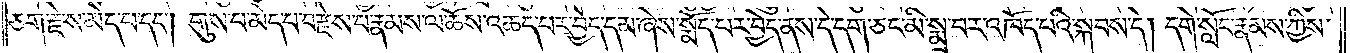ཅག་རྗེ་ས་མེད་པ་དང༌། གུས་པ་མེད་པ་བརྫེས་པ་རྣམས་ལ་ཆོས་འཆད་པར་བྱེད་དམ་ཞེས་སྨོད་པར་བྱེད་ནས་དེ་དག་ཅང་མི་སྨྲ་བར་འཁོད་པའི་སྐབས་དེ། དགེ་སློང་རྣམས་ཀྱིས་
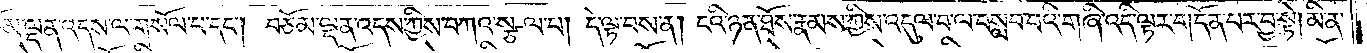བཅོམ་ལྡན་འདས་ལ་གསོལ་པ་དང༌། བཅོམ་ལྡན་འདས་ཀྱིས་བཀའ་སྩལ་པ། དེ་ལྟ་བས་ན། ངའི་ཉན་ཐོས་རྣམས་ཀྱིས་འདུལ་བ་ལ་བསླབ་པའི་གཞི་འདི་ལྟར་གདོན་པར་བྱ་སྟེ། མི་ན་
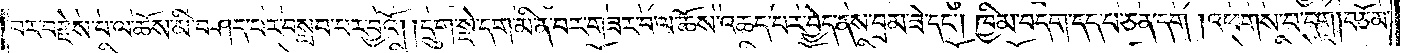བར་བརྫེས་པ་ལ་ཆོས་མི་བཤད་པར་བསླབ་པར་བྱའོ། །དྲུག་སྡེ་དག་མི་ན་བར་གཟར་བ་ལ་ཆོས་འཆད་པར་བྱེད་ནས་བྲམ་ཟེ་དང༌། ཁྱིམ་བདག་དད་པ་ཅན་དག །འཕགས་པ་དག །བཅོམ་
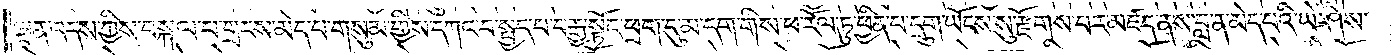ལྡན་འདས་ཀྱིས་བསྐལ་པ་གྲངས་མེད་པ་གསུམ་གྱིས་དཀའ་བ་སྤྱད་པ་བརྒྱ་སྟོང་ཕྲག་དུ་མ་དག་གིས་ཕ་རོལ་ཏུ་ཕྱིན་པ་དྲུག་ཡོངས་སུ་རྫོགས་པར་མཛད་ནས་བླ་ན་མེད་པའི་ཡེ་ཤེས་
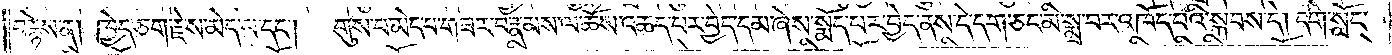བརྙེས་ན། ཁྱེད་ཅག་རྗེས་མེད་པ་དང༌། གུས་པ་མེད་པ་གཟར་བ་རྣམས་ལ་ཆོས་འཆད་པར་བྱེད་དམ་ཞེས་སྨོད་པར་བྱེད་ནས་དེ་དག་ཅང་མི་སྨྲ་བར་འཁོད་པའི་སྐབས་དེ། དགེ་སློང་
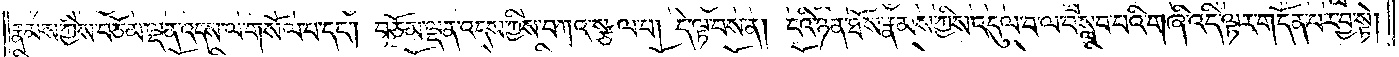རྣམས་ཀྱིས་བཅོམ་ལྡན་འདས་ལ་གསོལ་པ་དང༌། བཅོམ་ལྡན་འདས་ཀྱིས་བཀའ་སྩལ་པ། དེ་ལྟ་བས་ན། ངའི་ཉན་ཐོས་རྣམས་ཀྱིས་འདུལ་བ་ལ་བསླབ་པའི་གཞི་འདི་ལྟར་གདོན་པར་བྱ་སྟེ།
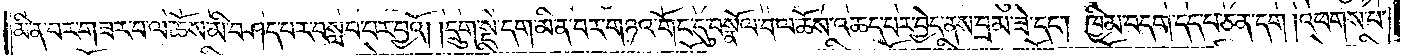མི་ན་བར་གཟར་བ་ལ་ཆོས་མི་བཤད་པར་བསླབ་པར་བྱའོ། །དྲུག་སྡེ་དག་མི་ན་བར་གཉའ་གོང་དུ་བསྣོལ་བ་ལ་ཆོས་འཆད་པར་བྱེད་ནས་བྲམ་ཟེ་དང༌། ཁྱིམ་བདག་དད་པ་ཅན་དག །འཕགས་པ་
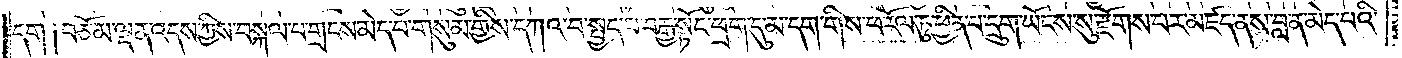དག །བཅོམ་ལྡན་འདས་ཀྱིས་བསྐལ་པ་གྲངས་མེད་པ་གསུམ་གྱིས་དཀའ་བ་སྤྱད་པ་བརྒྱ་སྟོང་ཕྲག་དུ་མ་དག་གིས་ཕ་རོལ་ཏུ་ཕྱིན་པ་དྲུག་ཡོངས་སུ་རྫོགས་པར་མཛད་ནས་བླ་ན་མེད་པའི་
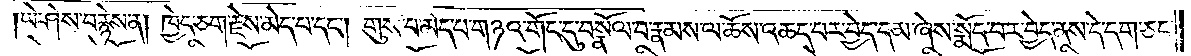།ཡེ་ཤེས་བརྙེས་ན། ཁྱེད་ཅག་རྗེས་མེད་པ་དང༌། གུས་པ་མེད་པ་གཉའ་གོང་དུ་བསྣོལ་བ་རྣམས་ལ་ཆོས་འཆད་པར་བྱེད་དམ་ཞེས་སྨོད་པར་བྱེད་ནས་དེ་དག་ཅང་
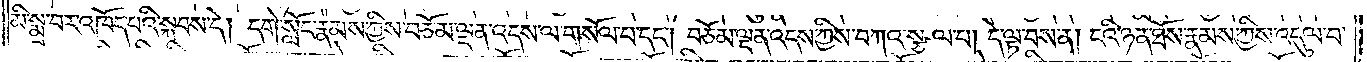མི་སྨྲ་བར་འཁོད་པའི་སྐབས་དེ། དགེ་སློང་རྣམས་ཀྱིས་བཅོམ་ལྡན་འདས་ལ་གསོལ་བ་དང༌། བཅོམ་ལྡན་འདས་ཀྱིས་བཀའ་སྩལ་པ། དེ་ལྟ་བས་ན། ངའི་ཉན་ཐོས་རྣམས་ཀྱིས་འདུལ་བ་
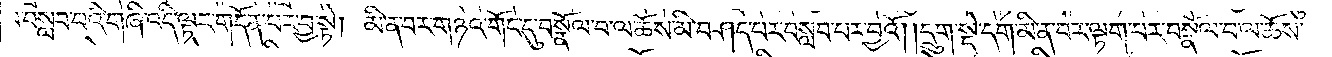ལ་བསླབ་པའི་གཞི་འདི་ལྟར་གདོན་པར་བྱ་སྟེ། མི་ན་བར་གཉའ་གོང་དུ་བསྣོལ་བ་ལ་ཆོས་མི་བཤད་པར་བསླབ་པར་བྱའོ། །དྲུག་སྡེ་དག་མི་ན་བར་ལྟག་པར་བསྣོལ་བ་ལ་ཆོས་
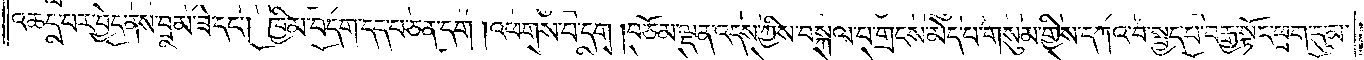འཆད་པར་བྱེད་ནས་བྲམ་ཟེ་དང༌། ཁྱིམ་བདག་དད་པ་ཅན་དག །འཕགས་པ་དག །བཅོམ་ལྡན་འདས་ཀྱིས་བསྐལ་པ་གྲངས་མེད་པ་གསུམ་གྱིས་དཀའ་བ་སྤྱད་པ་བརྒྱ་སྟོང་ཕྲག་དུ་མ་
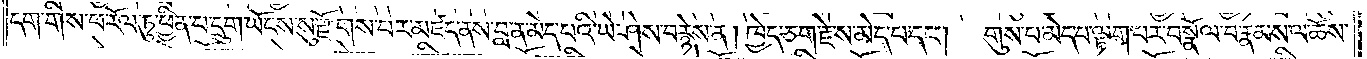དག་གིས་ཕ་རོལ་ཏུ་ཕྱིན་པ་དྲུག་ཡོངས་སུ་རྫོགས་པར་མཛད་ནས་བླ་ན་མེད་པའི་ཡེ་ཤེས་བརྙེས་ན། ཁྱེད་ཅག་རྗེས་མེད་པ་དང༌། གུས་པ་མེད་པ་ལྟག་པར་བསྣོལ་བ་རྣམས་ལ་ཆོས་
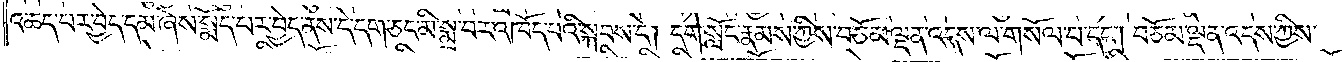འཆད་པར་བྱེད་དམ་ཞེས་སྨོད་པར་བྱེད་ནས་དེ་དག་ཅང་མི་སྨྲ་བར་འཁོད་པའི་སྐབས་དེ། དགེ་སློང་རྣམས་ཀྱིས་བཅོམ་ལྡན་འདས་ལ་གསོལ་པ་དང༌། བཅོམ་ལྡན་འདས་ཀྱིས་
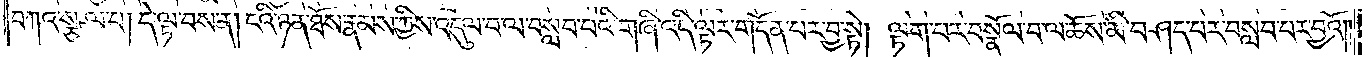བཀའ་སྩལ་པ། དེ་ལྟ་བས་ན། ངའི་ཉན་ཐོས་རྣམས་ཀྱིས་འདུལ་བ་ལ་བསླབ་པའི་གཞི་འདི་ལྟར་གདོན་པར་བྱ་སྟེ། ལྟག་བར་བསྣོལ་བ་ལ་ཆོས་མི་བཤད་པར་བསླབ་པར་བྱའོ། །
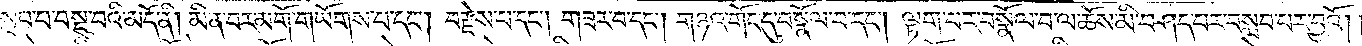བསླབ་པ་བསྡུ་བའི་མདོ་ནི། མི་ན་བར་མགོ་གཡོགས་པ་དང༌། བརྫེས་པ་དང༌། གཟར་བ་དང༌། གཉའ་གོང་དུ་བསྣོལ་བ་དང༌། ལྟག་པར་བསྣོལ་བ་ལ་ཆོས་མི་བཤད་པར་བསླབ་པར་བྱའོ། །
